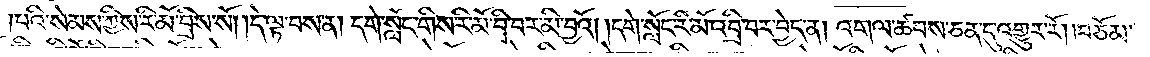པའི་སེམས་ཀྱིས་རི་མོ་བྲིས་སོ། །དེ་ལྟ་བས་ན། དགེ་སློང་གིས་རི་མོ་བྲི་བར་མི་བྱའོ། །དགེ་སློང་རི་མོ་འབྲི་བར་བྱེད་ན། འགལ་ཚབས་ཅན་དུ་འགྱུར་རོ། །བཅོམ་
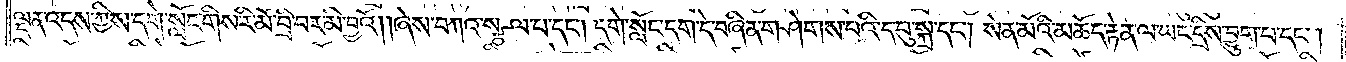ལྡན་འདས་ཀྱིས་དགེ་སློང་གིས་རི་མོ་བྲི་བར་མི་བྱའོ། །ཞེས་བཀའ་སྩལ་པ་དང༌། དགེ་སློང་དག་དེ་བཞིན་གཤེགས་པའི་དབུ་སྐྲ་དང༌། སེན་མོའི་མཆོད་རྟེན་ལ་ཡང་དྲིས་བྱུག་པ་དང༌།
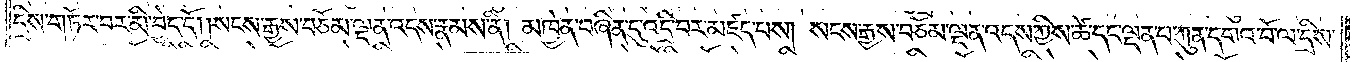དྲིས་གཏོར་བར་མི་བྱེད་དོ། །སངས་རྒྱས་བཅོམ་ལྡན་འདས་རྣམས་ནི། མཁྱེན་བཞིན་དུ་འདྲི་བར་མཛད་པས། སངས་རྒྱས་བཅོམ་ལྡན་འདས་ཀྱིས་ཚེ་དང་ལྡན་པ་ཀུན་དགའ་བོ་ལ་དྲིས་
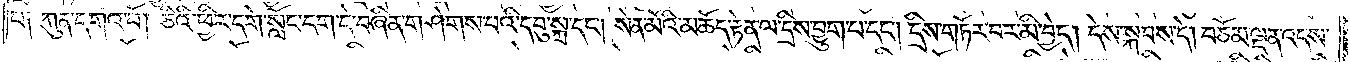པ། ཀུན་དགའ་བོ། ཅིའི་ཕྱིར་དགེ་སློང་དག་དེ་བཞིན་གཤེགས་པའི་དབུ་སྐྲ་དང༌། སེན་མོའི་མཆོད་རྟེན་ལ་དྲིས་བྱུག་པ་དང༌། དྲིས་གཏོར་བར་མི་བྱེད། དེས་སྐབས་དེ། བཅོམ་ལྡན་འདས་
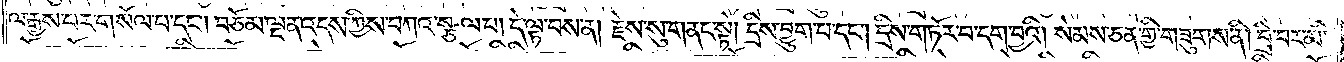ལ་རྒྱས་པར་གསོལ་པ་དང༌། བཅོམ་ལྡན་འདས་ཀྱིས་བཀའ་སྩལ་པ། དེ་ལྟ་བས་ན། རྗེས་སུ་གནང་སྟེ། དྲིས་བྱུག་པ་དང༌། དྲིས་གཏོར་བ་དག་བྱའི། སེམས་ཅན་གྱི་གཟུགས་ནི། བྲི་བར་མི་
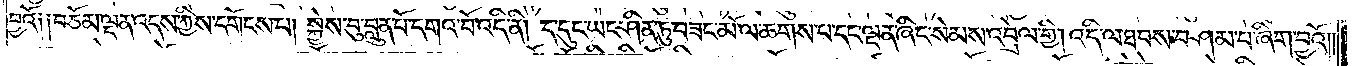བྱའོ༑ ༑བཅོམ་ལྡན་འདས་ཀྱིས་དགོངས་པ། སྐྱེས་བུ་བླུན་པོ་དགའ་བོ་འདི་ནི། ད་དུང་ཡང་ཤིན་ཏུ་བཟང་མོ་ལ་ཆགས་པ་དང་ལྡན་ཞིང་སེམས་འབྲེལ་གྱི། འདི་ལ་ཐབས་བཤམ་པ་ཞིག་བྱའོ༎
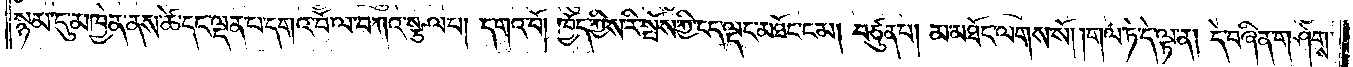སྙམ་དུ་མཁྱེན་ནས་ཚེ་དང་ལྡན་པ་དགའ་བོ་ལ་བཀའ་སྩལ་པ། དགའ་བོ། ཁྱོད་ཀྱིས་རི་སྤོས་ཀྱི་ངད་ལྡང་མཐོང་ངམ། བཙུན་པ། མ་མཐོང་ལགས་སོ། །གལ་ཏེ་དེ་ལྟ་ན། དེ་བཞིན་གཤེགས་
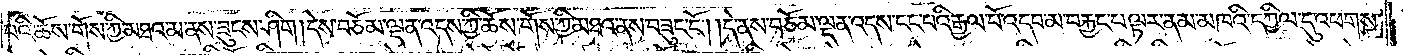པའི་ཆོས་གོས་ཀྱི་མཐའ་མ་ནས་ཟུངས་ཤིག །དེས་བཅོམ་ལྡན་འདས་ཀྱི་ཆོས་གོས་ཀྱི་མཐའ་ནས་བཟུང་ངོ༌། །དེ་ནས་བཅོམ་ལྡན་འདས་ངང་པའི་རྒྱལ་པོ་འདབ་མ་བརྐྱང་བལྟར་ནམ་མཁའི་དཀྱིལ་དུ་འཕགས་
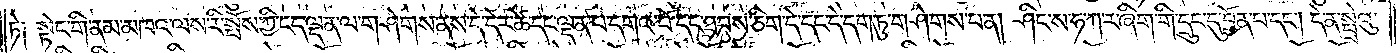ཏེ༑ སྟེང་གི་ནམ་མཁའ་ལས་རི་སྤོས་ཀྱི་ངད་ལྡན་ལ་གཤེགས་ནས་དེ་དེར་ཚེ་དང་ལྡན་པ་དགའ་བོ་དང་ཐབས་ཅིག་དེ་དང་དེ་དག་ཏུ་གཤེགས་པ་ན། ཤིང་ས་ཧ་ཀ་ར་ཞིག་གི་དྲུང་དུ་བྱོན་པ་དང༌། དེ་ན་སྤྲེའུ་
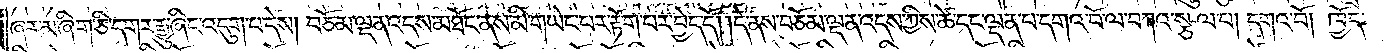ཞར་མ་ཞིག་ཅི་དགར་རྒྱུ་ཞིང་འདུག་པ་དེས། བཅོམ་ལྡན་འདས་མཐོང་ནས་མི་གཡེང་པར་རྟོག་པར་བྱེད་དོ། །དེ་ནས་བཅོམ་ལྡན་འདས་ཀྱིས་ཚེ་དང་ལྡན་པ་དགའ་བོ་ལ་བཀའ་སྩལ་པ། དགའ་བོ། ཁྱོད་
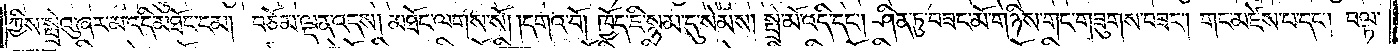ཀྱིས་སྤྲེའུ་ཞར་མ་འདི་མཐོང་ངམ། བཅོམ་ལྡན་འདས། མཐོང་ལགས་སོ། །དགའ་བོ། ཁྱོད་ཇི་སྙམ་དུ་སེམས། སྤྲེ་མོ་འདི་དང༌། ཤིན་ཏུ་བཟང་མོ་གཉིས་གང་གཟུགས་བཟང༌། གང་མཛེས་པ་དང༌། བལྟ་
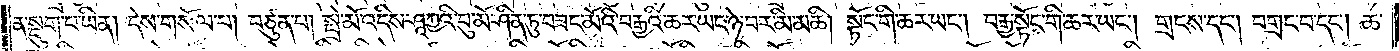ན་སྡུག་པ་ཡིན། དེས་གསོལ་པ། བཙུན་པ། སྤྲེ་མོ་འདིས་ཤཱཀྱའི་བུ་མོ་ཤིན་ཏུ་བཟང་མོའི་བརྒྱའི་ཆར་ཡང་ཉེ་བར་མི་མཆི། སྟོང་གི་ཆར་ཡང༌། བརྒྱ་སྟོང་གི་ཆར་ཡང༌། གྲངས་དང༌། བགྲང་བ་དང༌། ཆ་
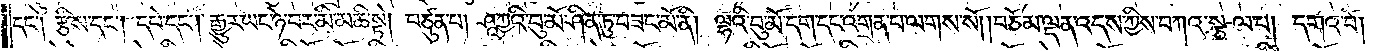དང༌། རྩིས་དང༌། དཔེ་དང༌། རྒྱུར་ཡང་ཉེ་བར་མི་མཆི་སྟེ། བཙུན་པ། ཤཱཀྱའི་བུ་མོ་ཤིན་ཏུ་བཟང་མོ་ནི། ལྷའི་བུ་མོ་དག་དང་འགྲན་པ་ལགས་སོ། །བཅོམ་ལྡན་འདས་ཀྱིས་བཀའ་སྩལ་པ། དགའ་བོ།
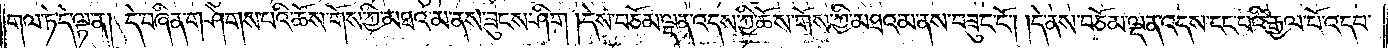གལ་ཏེ་དེ་ལྟ་ན། དེ་བཞིན་གཤེགས་པའི་ཆོས་གོས་ཀྱི་མཐའ་མ་ནས་ཟུངས་ཤིག །དེས་བཅོམ་ལྡན་འདས་ཀྱི་ཆོས་གོས་ཀྱི་མཐའ་མ་ནས་བཟུང་ངོ༌། །དེ་ནས་བཅོམ་ལྡན་འདས་ངང་པའི་རྒྱལ་པོ་འདབ་
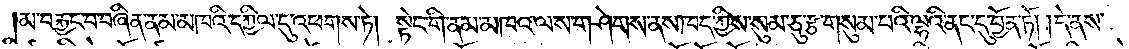མ་བརྐྱང་བ་བཞིན་ནམ་མཁའི་དཀྱིལ་དུ་འཕགས་ཏེ། སྟེང་གི་ནམ་མཁའ་ལས་གཤེགས་ནས་ཁད་ཀྱིས་སུམ་ཅུ་རྩ་གསུམ་པའི་ལྷའི་ནང་དུ་བྱོན་ཏོ། །དེ་ནས་
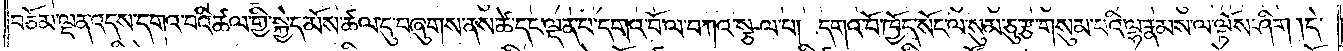བཅོམ་ལྡན་འདས་དགའ་བའི་ཚལ་གྱི་སྐྱེད་མོས་ཚལ་དུ་བཞུགས་ནས་ཚེ་དང་ལྡན་པ་དགའ་བོ་ལ་བཀའ་སྩལ་པ། དགའ་བོ་ཁྱོད་སོང་ལ་སུམ་ཅུ་རྩ་གསུམ་པའི་ལྷ་རྣམས་ལ་ལྟོས་ཤིག །དེ་
